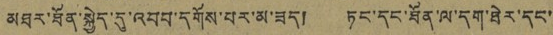མཐར་ཐོན་སྐྱེད་དུ་འབབ་དགོས་པར་མ་ཟད། ཏང་དང་ཐོན་ལ་དག་ཐེར་དང་
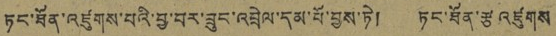ཏང་ཐོན་འཛུགས་པའི་བྱ་བར་ཟུང་འབྲེལ་དམ་པོ་བྱས་ཏེ། ཏང་ཐོན་རྩ འཛུགས
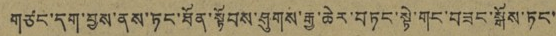གཙང་དག་བྱས་ནས་ཏང་ཐོན་སྟོབས་ཤུགས་རྒྱ་ཆེར་བཏང་སྟེ་གང་བཟང་སྒོས་ཏང་
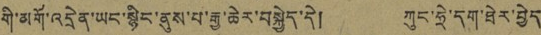གི་མགོ་འདྲེན་ཡང་སྙིང་ནུས་པ་རྒྱ་ཆེར་བསྐྱེད་དེ། ཀུང་ཧྲེ་དག་ཐེར་བྱེད་
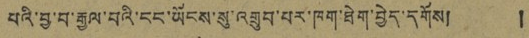པའི་བྱ་བ་རྒྱལ་བའི་ངང་ཡོངས་སུ་འགྲུབ་པར་ཁག་ཐེག་བྱེད་དགོས། །
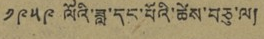༡༩༥༩ ལོའི་ཟླ་དང་པོའི་ཚེས་བཅུ་ལ།
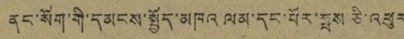ནང་སོག་གི་དམངས་སྤྱོད་མཁའ་ལམ་དང་པོར་ཧྥས ཅི་འཕུར
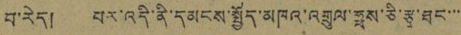བ་རེད། པར་འདི་ནི་དམངས་སྤྱོད་མཁའ་འགྲུལ་ཧྥས་ཅི་རྩྭ་ཐང་་་་
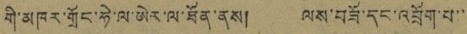གི་མཁར་གྲོང་ཧེ་ལ་ཨེར་ལ་ཐོན་ནས། ལས་བཟོ་དང་འབྲོག་པ་་
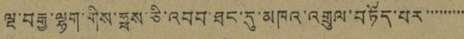ལྔ་བརྒྱ་ལྷག་གིས་ཧྥས་ཅི་འབབ་ཐང་དུ་མཁའ་འགྲུལ་བཏོད་པར་་་་་་་་་
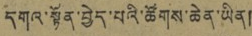དགའ་སྟོན་བྱེད་པ་འི་ཚོགས་ཆེན་ཡིན།
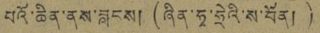པའོ་ཆེན་ནས་ཟླངས། (ཞིན་ཧྭ་ཧྲེའི་ས་བོན།)
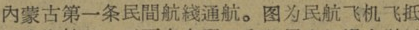內蒙古第一条民間航綫通航。图为民航飞机飞抵
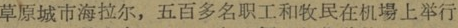草原城市海拉尔，五百多名职工和牧民在机場上举行
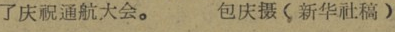了庆祝通航大会。 包庆摄（新华社稿）
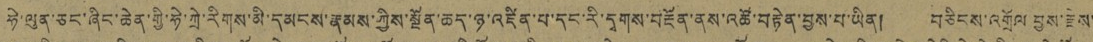ཧེ་ལུན་ཅང་ཞིང་ཆེན་གྱི་ཧེ་ཀྲེ་རིགས་མི་དམངས་རྣམས་ཀྱིས་སྔོན་ཆད་ཉ་འཛིན་པ་དང་རི་དྭགས་བརྡོན་ནས་འཚོ་བརྟེན་བྱས་པ་ཡིན། བཅིངས་འགྲོལ་བྱས་རྗེས་
